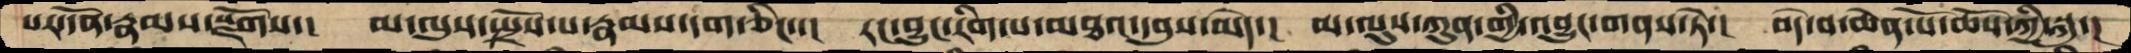པར་དོན་རྣམས་སྫོགས་།  མ་ལུས་སྤྲོས་པ་རྣམས་དག་ཅིང་།  རང་བྱུང་རིག་པ་མཐའ་དབུས་མེད་།  མ་ལུས་ཀུན་གྱི་འབྱུང་གནས་ཏེ་།  བདེ་བ་ཆེན་པོ་ཆོས་ཀྱི་སྐུ་།
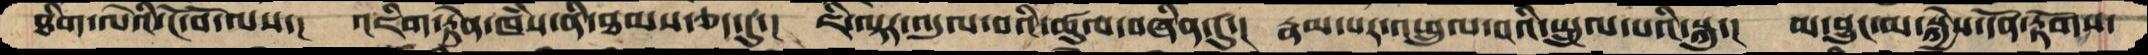ཐིག་ལེའི་ངོ་བོ་ལས་།  འཇིག་སྟེན་ཁཾས་ནི་ཐམས་ཅད་དུ་།  ཇི་ལྟར་འདུལ་བའི་ཚུལ་བཞིན་དུ་།  རྣམ་པར་འཕྲུལ་བའི་སྤྲུལ་པའི་སྐུ་།  མ་བྱུང་མ་སྐྱེས་དོན་རྟོགས་
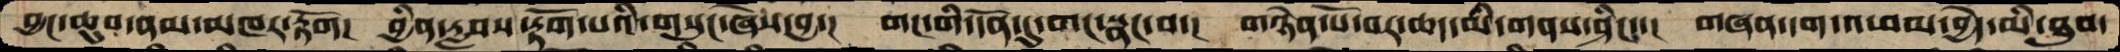བྱང་ཆུབ་ནམ་མཁར་རྟོག།  བྱིན་རླབས་རྟོག་པའི་གསུང་ཞེས་བྱ་།  གང་གི་དོན་དུ་གང་སྣང་བ་།   གཉེན་པོ་བར་ཆད་མི་གནས་ཤིང་་།  གཞན་དག་འཕམ་བྱེད་མི་ཐུབ་
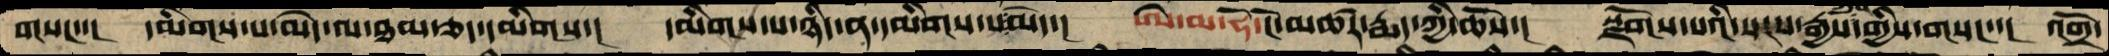གསང་་། དམིགས་པ་མེད་ལ་ཐམ་ཅད་དམིགས་། དམིགས་པ་ཉིད་ན་དམིགས་པ་མེད་། ཨེ་མ་ཧོ་ངོ་མཚར་རྨད་ཀྱི་ཆོས་། སྫོགས་པའི་སངས་རྒྱས་ཀུན་གྱིས་གསང་་། འགྲོ་
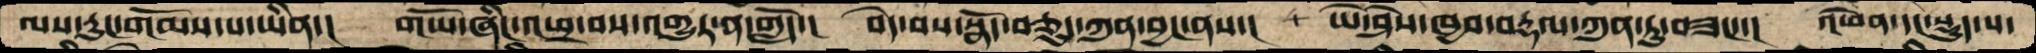ལས་རུང་གོམས་པ་ཡིན་། གཡོ་ཞིང་འཕྲ་བས་འགྱུར་ན་གློད་། བདེ་བས་སྣོད་བཅུད་ཀུན་བྱང་ནས་། ཡེ་ཤེས་ཁྱབ་བརྡལ་ཀུན་ཏུ་བཟང་་། འཕེན་དང་སྡུད་པ་
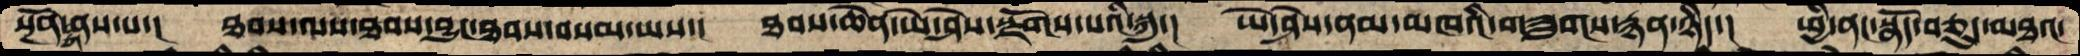སྔོན་གནས་པ་། ཐབས་ལས་ཐབས་བྱུང་ཐབས་བསམ་ཡས་། ཐབས་ཆེན་ཡེ་ཤེས་སྫོགས་པའི་སྐུ་། ཡེ་ཤེས་ནམ་མཁའི་གཟུགས་རྙན་ཉིད་། ཕྱི་ནང་སྣོད་བཅུད་མཐའ་
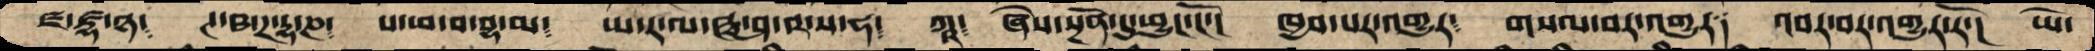ཛ་ཛྷ་ཉ༴  ཊ་ཋ་ཌ་དྷ་ཎ༴  པ་ཕ་བ་བྷ་མ༴  ཡ་ར་ལ་ཝ་ཤ་ཥ་ས་ཧ༴  ཀྵ༴  ཞེས་སྔོན་དུ་ཕྱུང་ངོ་།  ཁྱབ་པར་འགྱུར༴  གསལ་བར་འགྱུར༑  འབར་བར་འགྱུར་རོ་།  ཡེ་
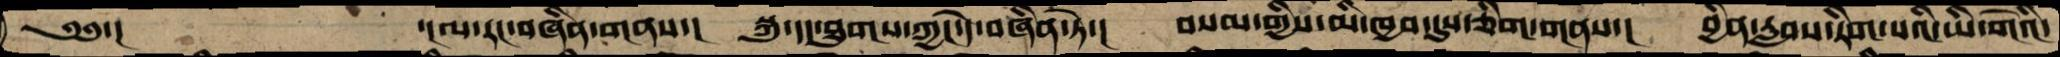༄༅་།             ་།ལ་རང་བཞིན་གནས་།  སྐུ་དང་ཐུགས་ཀྱང་དེ་བཞིན་ཏེ་།  བསམ་གྱིས་མི་ཁྱབ་དུས་ཅིག་གནས་།  བྱིན་རླབས་རིག་པའི་ཡི་གེའི་
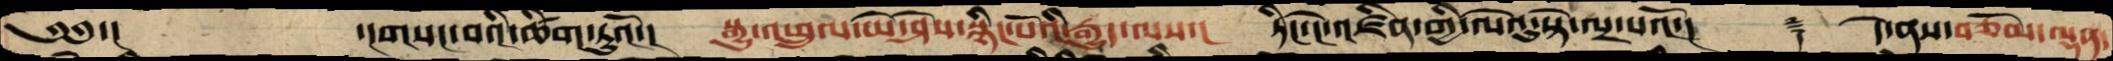༄༅་།               ་།གསང་བའི་ཚིག་ཏུའོ་།  སྒྱུ་འཕྲུལ་ཡེ་ཤེསསྙིང་པོའི་རྒྱུད་ལས་།  ཏིང་ངེ་འཛིན་གྱི་ལེའུ་སྟེ་ལྔ་པའོ་།   ࿑   དེ་ནས་བཅོམ་ལྡན་
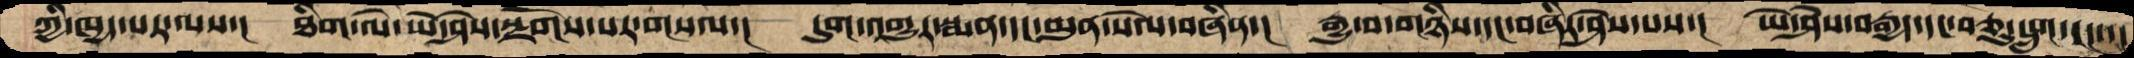ཀྱི་ཁྱད་པར་ལས་།  ཐིག་ལེ་ཡེ་ཤེས་སྫོགས་པར་གསལ་།  དུག་འགྱུར་སྨན་དང་མུན་སེལ་བཞིན་།  རྒྱུ་བ་གཉིས་དང་བཞི་ཤེས་པས་།  ཡེ་ཤེས་བརྒྱད་དང་བཅུ་དྲུག་དང་་།
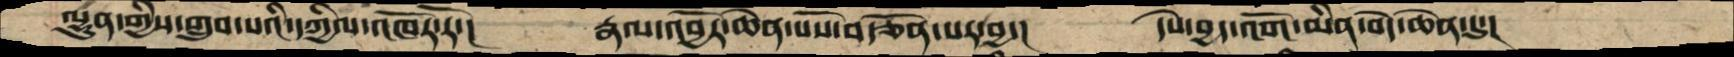ལྷུན་གྱིས་གྲུབ་པའི་དཀྱིལ་འཁོར་རོ་།  རྣལ་འབྱོར་ཆེན་པོས་བརྩོན་པར་བྱ་།  དཔེ་བྱད་འོག་མིན་བདེ་ཆེན་དུ་
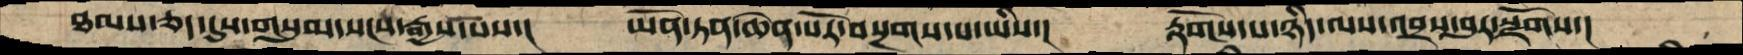ཐམས་ཅད་དུས་གསུམ་སངས་རྒྱས་པས་།  ཡོན་ཏན་ཆེན་པོར་བསྔགས་པ་ཡིས་།  རྟོགས་པ་ཉིད་ལས་འབྲས་བུར་སྫོགས་།
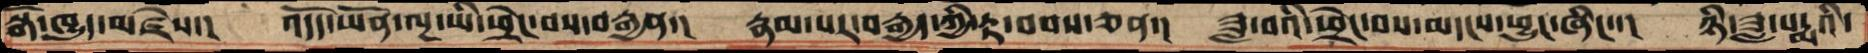སྒོ་ཁྱུད་མཛེས་།  འདོད་ཡོན་ལྔ་ཡི་ཕྲེང་བས་བརྒྱན་།  རྣམ་པར་བརྒྱད་ཀྱི་རྟ་བབས་ཅན་།  ཟླ་བའི་ཕྲེང་བས་མདངས་ཕྱུང་ཞིང་་།  ཉི་ཟླ་པདྨའི་
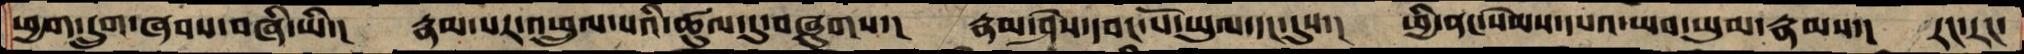ཕྱག་དྲུག་ཞབས་བཞི་ཡི་།  རྣམ་པར་འཕྲུལ་པའི་ཚུལ་དུ་བཞུགས་།  རྣམ་ཤེས་དབང་པོ་ཡུལ་དང་དུས་།  ཕྱི་ནང་སེམས་དཔའ་ཡབ་ཡུམ་རྣམས་།  རང་རང་
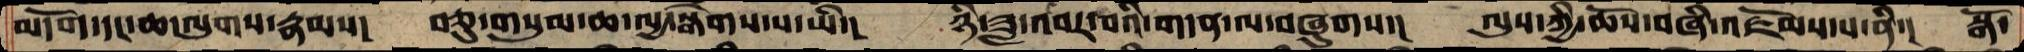མདོག་དང་ཆ་ལུགས་རྣམས།  བཅུ་གསུམ་ཆ་ལྱ་སྒེགས་པ་ཡི་།  ཉི་ཟླ་འབར་བའི་གདན་ལ་བཞུགས་།  ལུས་ཀྱི་ཆོས་བཞི་འཛོམས་པ་ནི་།  སྒོ་
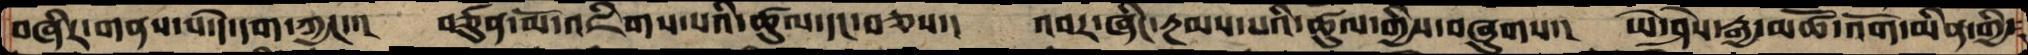བཞིར་གནས་པ་དེ་དག་ཀྱང་་།  བཙུན་མོ་འཇིག་པའི་ཚུལ་དང་བཅས་།  འབར་ཞིང་རྔམས་པའི་ཚུལ་གྱིས་བཞུགས་།  ཡེ་ཤེས་རྒྱ་མཚོ་འོག་མིན་གྱི་
